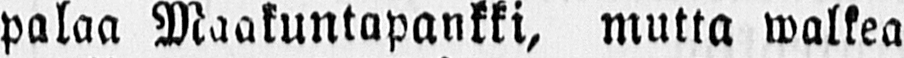palaa Maakuntapankki, mutta walkea
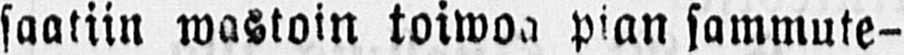saatiin wastoin toiwoa pian sammute-
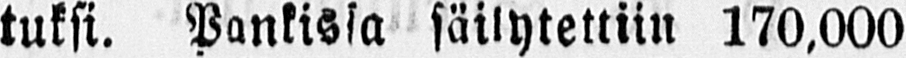tuksi. Pankissa säilytettiin 170.000
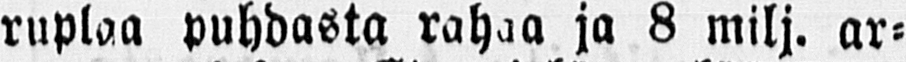ruplaa puhdasta rahaa ja 8 milj. ar-
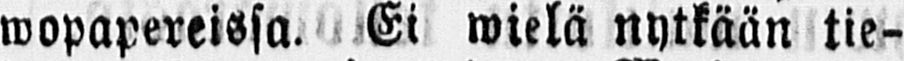wopapereissa. Ei wielä nytkään tie-
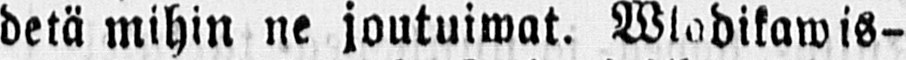detä mihin ne joutuiwat. Wlodikawis-
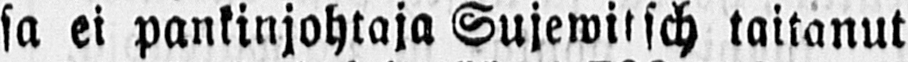sa ei pankinjohtaja Sujewitsch taitanut
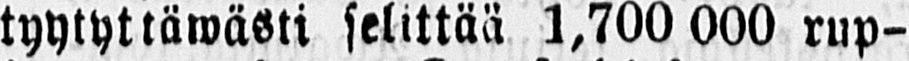tyytyttäwästi selittää 1,700 000 rup-
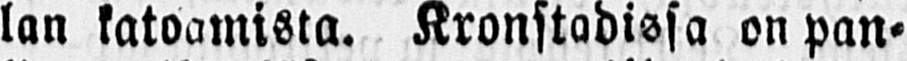lan katoamista. Kronstadissa on pan-
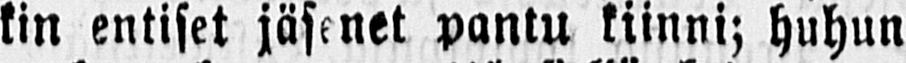kin entiset jäsenet pantu kiinni; huhun
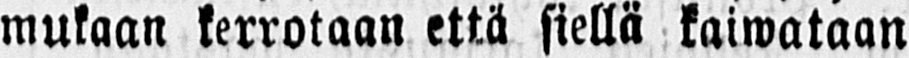mukaan kerrotaan että siellä kaiwataan
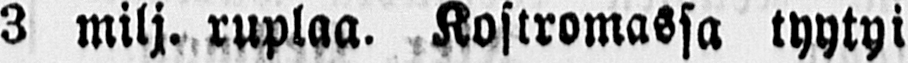3 milj. ruplaa. Kostromassa tyytyi
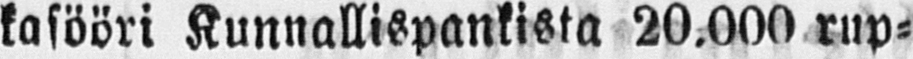kasööri Kunnallispankista 20.000 rup-
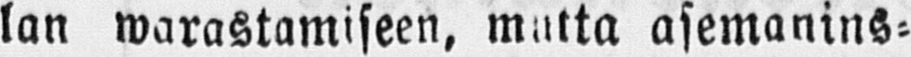lan warastamiseen, mutta asemanins-
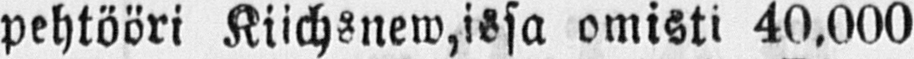pehtööri Kiichsnew,issa omisti 40.000
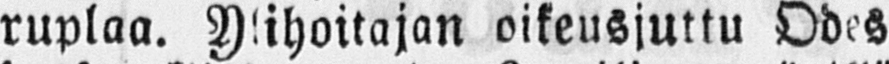ruplaa. Ylihoitajan oikeusjuttu Odes
